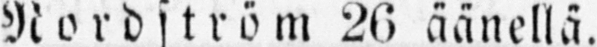Nordström 26 äänellä.
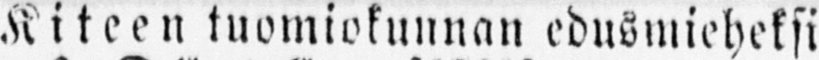Kiteen tuomiokunnan edusmieheksi
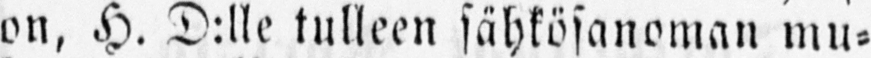on, H. D:lle tulleen sähkösanoman mu-
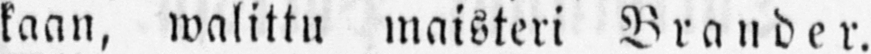kaan, walittu maisteri Brander.
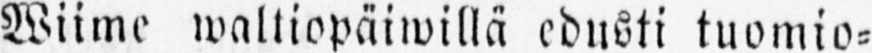Wiime waltiopäiwillä edusti tuomio-
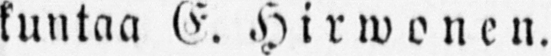kuntaa E. Hirwonen.
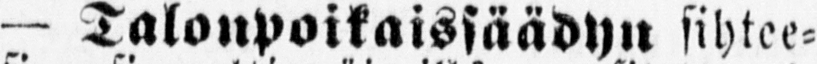- Talonpoikaissäädyn sihtee-
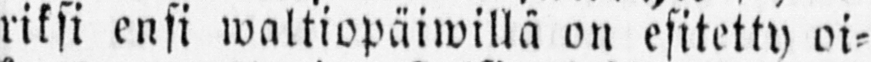riksi ensi waltiopäiwillä on esitetty oi-
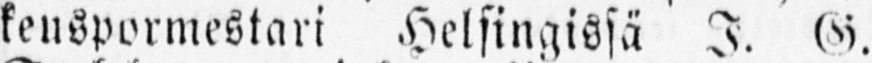keuspormestari Helsingissä J. G.
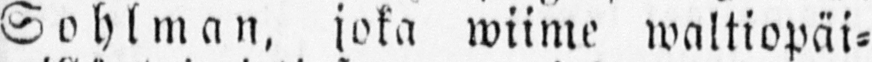Sohlman, joka wiime waltiopäi-
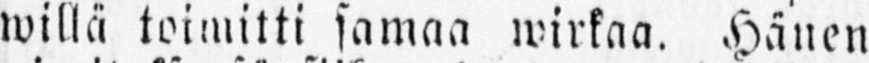willä toimitti samaa wirkaa. Hänen
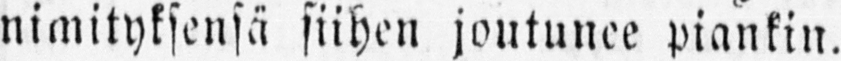nimityksensä siihen joutunee piankin.
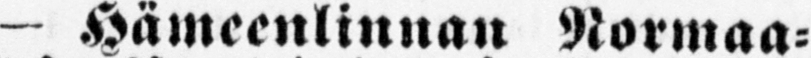— Hämeenlinnan Normaa-
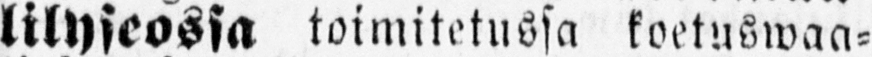lilyseossa toimitetussa koetuswaa-
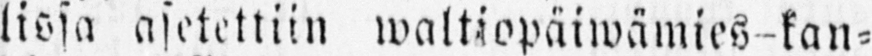lissa asetettiin waltiopäiwämies-kan-
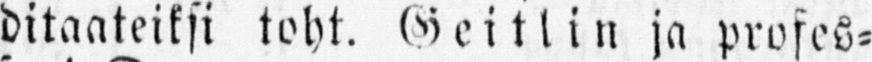ditaateiksi toht. Geitlin ja profes-
